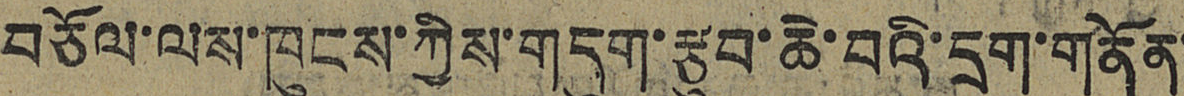བཅོལ་ལས་ཁུངས་ཀྱིས་གདུག་རྩུབ་ཆེ་བའི་དྲག་གནོན་
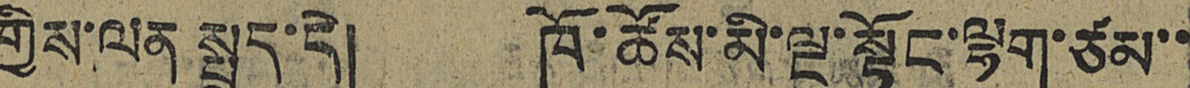གྱིས་ལན སྤྲད་དེ། ཁོ་ཚོས་མི་ལྔ་སྟོང་ལྷག་ཙམ་་
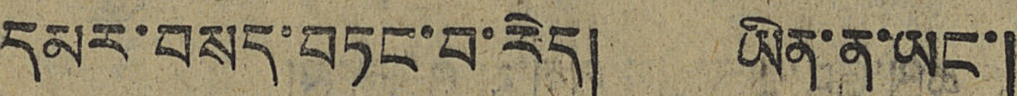དམར་བསད་བཏང་བ་རེད། ཡིན་ན་ཡང་།
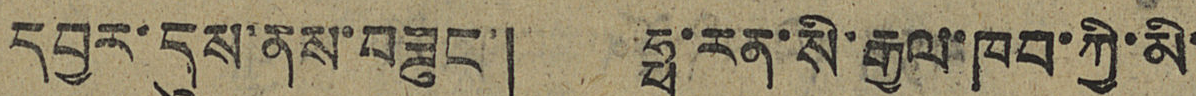དབྱར་དུས་ནས་བཟུང་། ཧྥ་རན་སི་རྒྱལ་ཁབ་ཀྱི་མི་
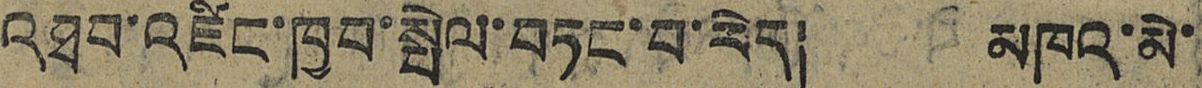འཐབ་འཛིང་ཁྱབ་སྤེལ་བཏང་བ་རེད། མཁའ་མེ་
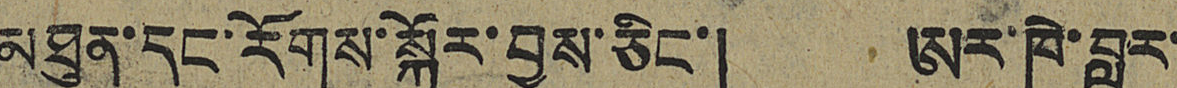མཐུན་དང་རོགས་སྐྱོར་བྱས་ཅིང་། ཨར་ཁེ་བླར་
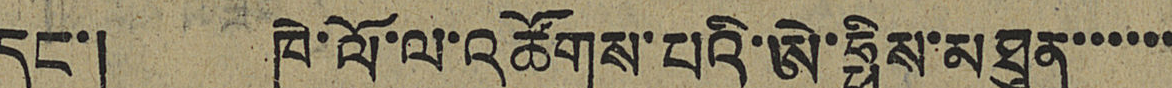དང་། ཁེ་ལོ་ལ་འཚོགས་པའི་ཨེ་ཧྥིས་མཐུན་་་་་་
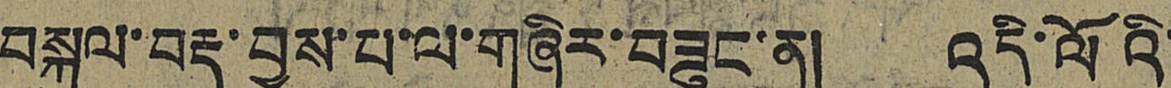བསྐུལ་བརྡ་བྱས་པ་ལ་གཞིར་བཟུང་ན། འདི་ལོའི་
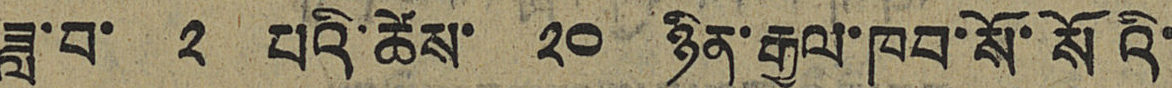ཟླ་བ་ ༢ པའི་ཚེས་ ༢༠ ཉིན་རྒྱལ་ཁབ་སོ་སོའི་
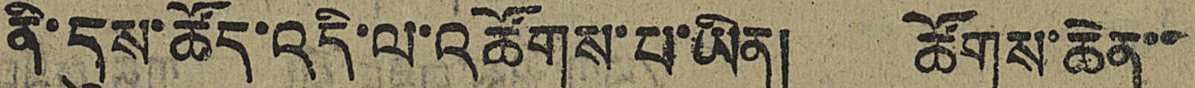ནི་དུས་ཚོད་འདི་ལ་འཚོགས་པ་ཡིན། ཚོགས་ཆེན་་
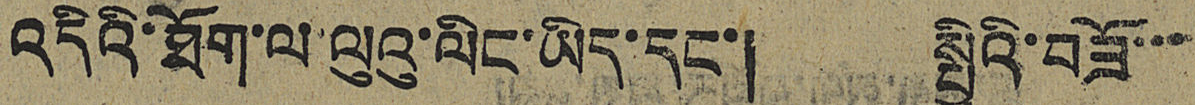འདིའི་ཐོག་ལ་ལུའུ་ལིང་ཡིད་དང་། སྤྱིའི་བཟོ་་་
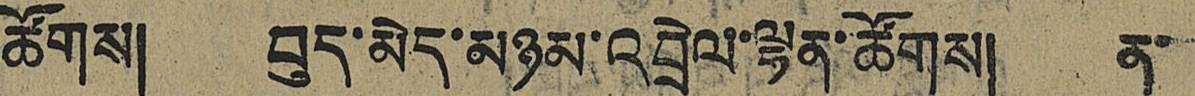ཚོགས། བུད་མེད་མཉམ་འབྲེལ་ལྷན་ཚོགས། ན་
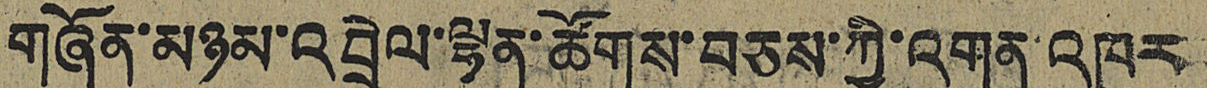གཞོན་མཉམ་འབྲེལ་ལྷན་ཚོགས་བཅས་ཀྱི་འགན་འཁུར
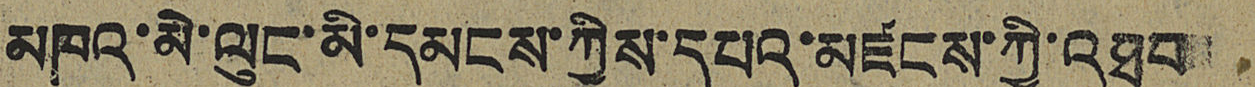མཁའ་མེ་ལུང་མི་དམངས་ཀྱིས་དཔའ་མཛངས་ཀྱི་འཐབ
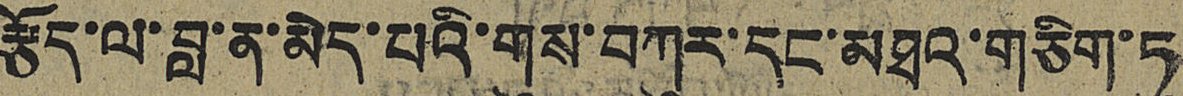རྩོད་ལ་བླ་ན་མེད་པའི་གུས་བཀུར་དང་མཐའ་གཅིག་ཏུ
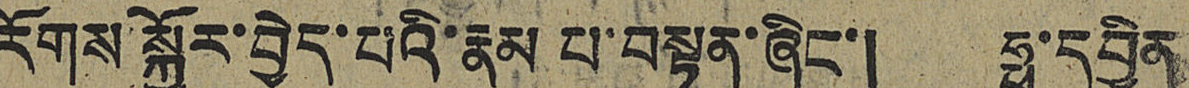རོགས་སྐྱོར་བྱེད་པའི་རྣམ པ་བསྟན་ཞིང་། ཧྥ་དབྱིན
